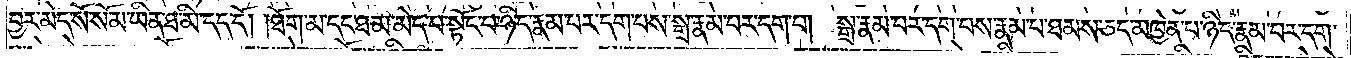བྱར་མེད་སོ་སོ་མ་ཡིན་ཐ་མི་དད་དོ། །ཐོག་མ་དང་ཐ་མ་མེད་པ་སྟོང་པ་ཉིད་རྣམ་པར་དག་པས་སྒྲ་རྣམ་པར་དག་པ། སྒྲ་རྣམ་པར་དག་པས་རྣམ་པ་ཐམས་ཅད་མཁྱེན་པ་ཉིད་རྣམ་པར་དག་
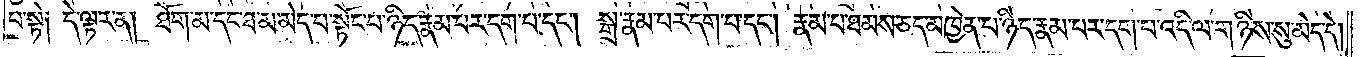པ་སྟེ༑ དེ་ལྟར་ན། ཐོག་མ་དང་ཐ་མ་མེད་པ་སྟོང་པ་ཉིད་རྣམ་པར་དག་པ་དང༌། སྒྲ་རྣམ་པར་དག་པ་དང༌། རྣམ་པ་ཐམས་ཅད་མཁྱེན་པ་ཉིད་རྣམ་པར་དག་པ་འདི་ལ་གཉིས་སུ་མེད་དེ།
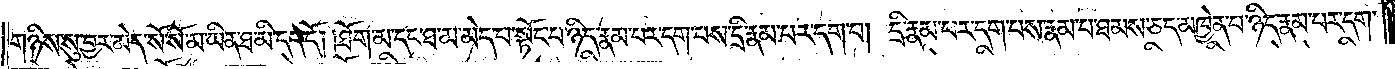གཉིས་སུ་བྱར་མེད་སོ་སོ་མ་ཡིན་ཐ་མི་དད་དོ། །ཐོག་མ་དང་ཐ་མ་མེད་པ་སྟོང་པ་ཉིད་རྣམ་པར་དག་པས་དྲི་རྣམ་པར་དག་པ། དྲི་རྣམ་པར་དག་པས་རྣམ་པ་ཐམས་ཅད་མཁྱེན་པ་ཉིད་རྣམ་པར་དག་
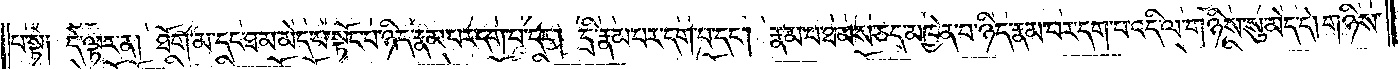པ་སྟེ༑ དེ་ལྟར་ན། ཐོག་མ་དང་ཐ་མ་མེད་པ་སྟོང་པ་ཉིད་རྣམ་པར་དག་པ་དང༌། དྲི་རྣམ་པར་དག་པ་དང༌། རྣམ་པ་ཐམས་ཅད་མཁྱེན་པ་ཉིད་རྣམ་པར་དག་པ་འདི་ལ་གཉིས་སུ་མེད་དེ། གཉིས་
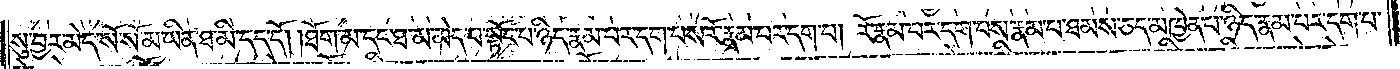སུ་བྱར་མེད་སོ་སོ་མ་ཡིན་ཐ་མི་དད་དོ། །ཐོག་མ་དང་ཐ་མ་མེད་པ་སྟོང་པ་ཉིད་རྣམ་པར་དག་པས་རོ་རྣམ་པར་དག་པ། རོ་རྣམ་པར་དག་པས་རྣམ་པ་ཐམས་ཅད་མཁྱེན་པ་ཉིད་རྣམ་པར་དག་པ་
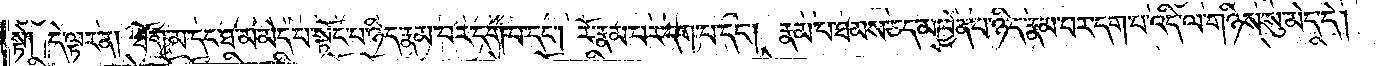སྟེ༑ དེ་ལྟར་ན། ཐོག་མ་དང་ཐ་མ་མེད་པ་སྟོང་པ་ཉིད་རྣམ་པར་དག་པ་དང༌། རོ་རྣམ་པར་དག་པ་དང༌། རྣམ་པ་ཐམས་ཅད་མཁྱེན་པ་ཉིད་རྣམ་པར་དག་པ་འདི་ལ་གཉིས་སུ་མེད་དེ།
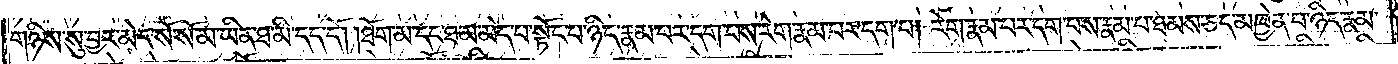གཉིས་སུ་བྱར་མེད་སོ་སོ་མ་ཡིན་ཐ་མི་དད་དོ། །ཐོག་མ་དང་ཐ་མ་མེད་པ་སྟོང་པ་ཉིད་རྣམ་པར་དག་པས་རེག་པ་རྣམ་པར་དག་པ། རེག་རྣམ་པར་དག་པས་རྣམ་པ་ཐམས་ཅད་མཁྱེན་པ་ཉིད་རྣམ་
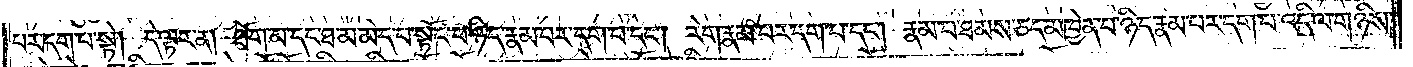པར་དག་པ་སྟེ། དེ་ལྟར་ན། ཐོག་མ་དང་ཐ་མ་མེད་པ་སྟོང་པ་ཉིད་རྣམ་པར་དག་པ་དང༌། རེག་པ་རྣམ་པར་དག་པ་དང༌། རྣམ་པ་ཐམས་ཅད་མཁྱེན་པ་ཉིད་རྣམ་པར་དག་པ་འདི་ལ་གཉིས་
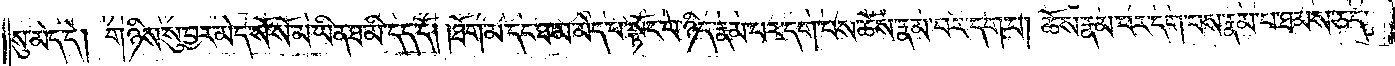སུ་མེད་དེ། གཉིས་སུ་བྱར་མེད་སོ་སོ་སོ་མ་ཡིན་ཐ་མི་དད་དོ། །ཐོག་མ་དང་ཐ་མ་མེད་པ་སྟོང་པ་ཉིད་རྣམ་པར་དག་པས་ཆོས་རྣམ་པར་དག་པ། ཆོས་རྣམ་པར་དག་པས་རྣམ་པ་ཐམས་ཅད་
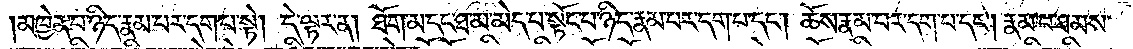མཁྱེན་པ་ཉིད་རྣམ་པར་དག་པ་སྟེ། དེ་ལྟར་ན། ཐོག་མ་དང་ཐ་མ་མེད་པ་སྟོང་པ་ཉིད་རྣམ་པར་དག་པ་དང༌། ཆོས་རྣམ་པར་དག་པ་དང༌། རྣམ་པ་ཐམས་
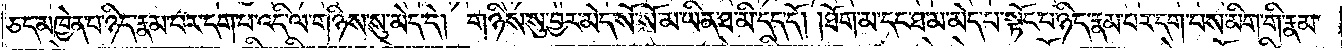ཅད་མཁྱེན་པ་ཉིད་རྣམ་པར་དག་པ་འདི་ལ་གཉིས་སུ་མེད་དེ། གཉིས་སུ་བྱར་མེད་སོ་སོ་མ་ཡིན་ཐ་མི་དད་དོ། །ཐོག་མ་དང་ཐ་མ་མེད་པ་སྟོང་པ་ཉིད་རྣམ་པར་དག་པས་མིག་གི་རྣམ་
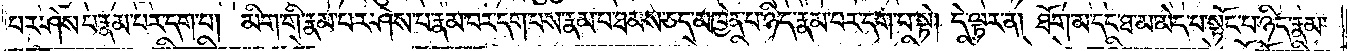པར་ཤེས་པ་རྣམ་པར་དག་པ། མིག་གི་རྣམ་པར་ཤེས་པ་རྣམ་བར་དག་པས་རྣམ་པ་ཐམས་ཅད་མཁྱེན་པ་ཉིད་རྣམ་པར་དག་པ་སྟེ། དེ་ལྟར་ན། ཐོག་མ་དང་ཐ་མ་མེད་པ་སྟོང་པ་ཉིད་རྣམ་
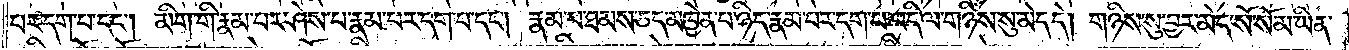པར་དག་པ་དང༌། མིག་གི་རྣམ་པར་ཤེས་པ་རྣམ་པར་དག་པ་དང༌། རྣམ་པ་ཐམས་ཅད་མཁྱེན་པ་ཉིད་རྣམ་པར་དག་པ་འདི་ལ་གཉིས་སུ་མེད་དེ། གཉིས་སུ་བྱར་མེད་སོ་སོ་མ་ཡིན་
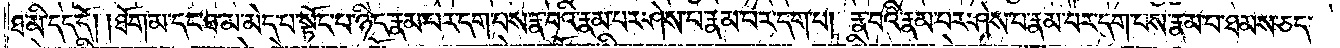ཐ་མི་དད་དོ། །ཐོག་མ་དང་ཐ་མ་མེད་པ་སྟོང་པ་ཉིད་རྣམ་པར་དག་པས་རྣ་བའི་རྣམ་པར་ཤེས་པ་རྣམ་པར་དག་པ། རྣ་བའི་རྣམ་པར་ཤེས་པ་རྣམ་པར་དག་པས་རྣམ་པ་ཐམས་ཅད་
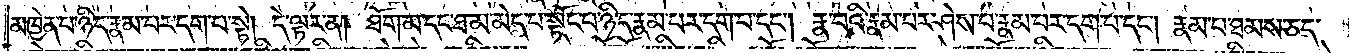མཁྱེན་པ་ཉིད་རྣམ་པར་དག་པ་སྟེ། དེ་ལྟར་ན། ཐོག་མ་དང་ཐ་མ་མེད་པ་སྟོང་པ་ཉིད་རྣམ་པར་དག་པ་དང༌། རྣ་བའི་རྣམ་པར་ཤེས་པ་རྣམ་པར་དག་པ་དང༌། རྣམ་པ་ཐམས་ཅད་
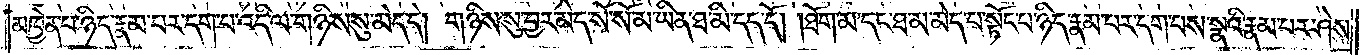མཁྱེན་པ་ཉིད་རྣམ་པར་དག་པ་འདི་ལ་གཉིས་སུ་མེད་དེ། གཉིས་སུ་བྱར་མེད་སོ་སོ་མ་ཡིན་ཐ་མི་དད་དོ། །ཐོག་མ་དང་ཐ་མ་མེད་པ་སྟོང་པ་ཉིད་རྣམ་པར་དག་པས་སྣའི་རྣམ་པར་ཤེས་
